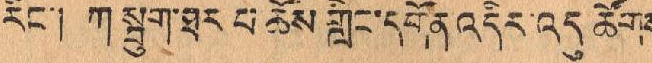རིང་། ཀ་སྦུག་ཐར་པ་ཆོས་གླིང་དགོན་འདིར་འདུ་ཚོགས
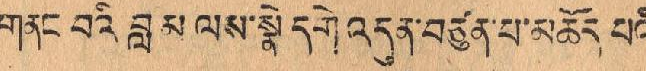གནང བའི བླ མ ལས་སྣེ དགེ འདུན་བཙུན་པ་མཆོད པའི་
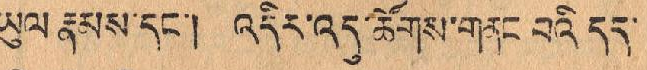ཡུལ རྣམས་དང་། འདིར་འདུ་ཚོགས་གནང བའི དད་
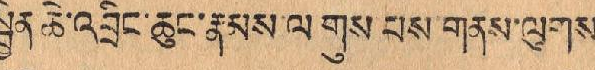སྦྱིན་ཆེ་འབྲིང་ཆུང་རྣམས་ལ་གུས་པས་གནས་ལུགས་
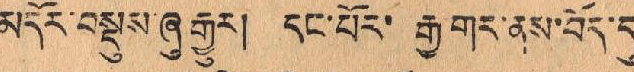མདོར་བསྡུས་ཞུ་རྒྱུར། དང་པོར་ རྒྱ་གར་ནས་བོད་དུ་
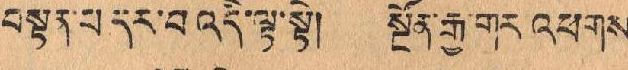བསྟན་པ་དར་བ འདི་ལྟ་སྟེ། སྔོན་རྒྱ་གར འཕགས་
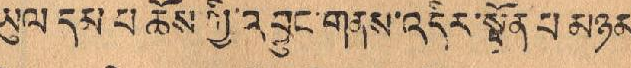ཡུལ དམ་པ ཆོས ཀྱི་འབྱུང་གནས་འདིར་སྟོན་པ མཉམ་
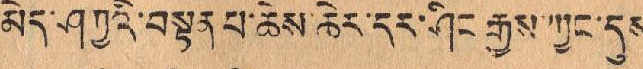མེད་ཤཀྱའི་བསྟན་པ་ཆེས་ཆེར་དར་ཤིང་རྒྱས་ཀྱང་དུས་
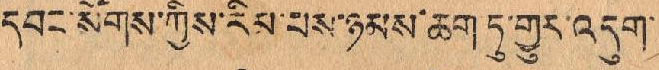དབང་སོགས་ཀྱིས་རིམ་པས་ཉམས་ཆག་ཏུ་གྱུར་འདུག་
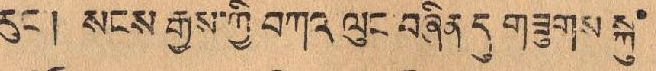རུང་། སངས རྒྱས་ཀྱི བཀའ ལུང བཞིན དུ གཟུགས སྐུ་
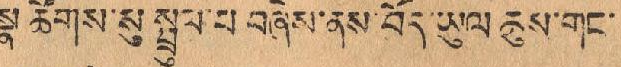སྣ ཚོགས་སུ་སྤྲུལ་པ བཞེས་ནས་བོད་ཡུལ་ཆུས་གང་
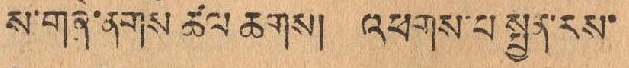ས་གཞི་ནགས ཚལ ཆགས། འཕགས་པ སྤྱན་རས་
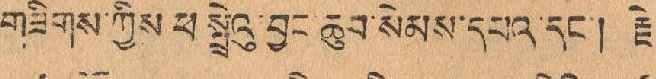གཟིགས་ཀྱིས་ཕ སྤྲེའུ་བྱང་ཆུབ་སེམས་དཔའ་དང་། རྗེ་
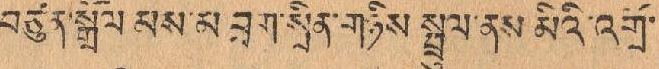བཙུན་སྒྲོལ མས་མ་བྲག་སྲིན་གཉིས སྤྲུལ་ནས མིའི་འགྲོ་
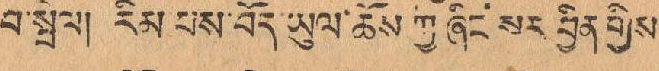བ་སྤེལ། རིན་པས་བོད་ཡུལ་ཆོས ཀྱི ཞིང་སར བྱིན གྱིས
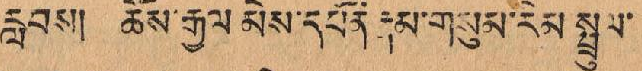རླབས། ཆོས་རྒྱལ་མེས་དཔོན་རྣམ་གསུམ་རིམ སྤྲུལ་
